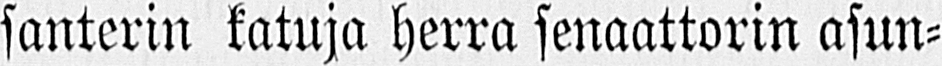santerin katuja herra senaattorin asun-
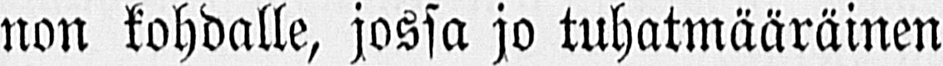non kohdalle, jossa jo tuhatmääräinen
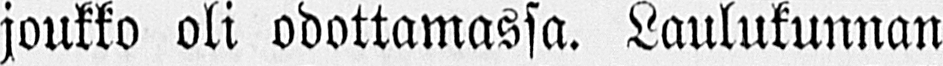joukko oli odottamassa. Laulukunnan
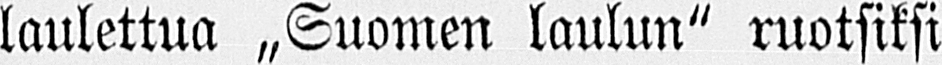laulettua „Suomen laulun" ruotsiksi
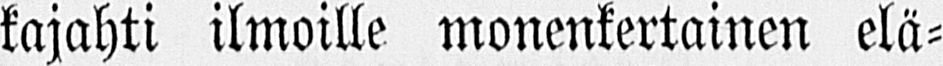kajahti ilmoille monenkertainen elä-
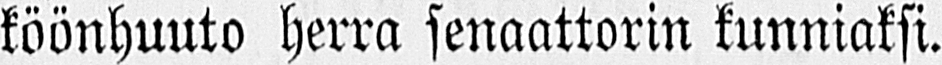köönhuuto herra senaattorin kunniaksi.
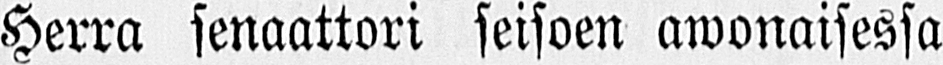Herra senaattori seisoen awonaisessa
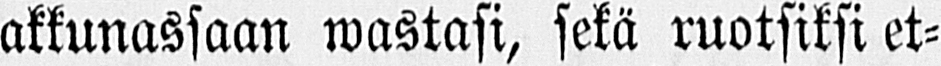akkunassaan wastasi, sekä ruotsiksi et-
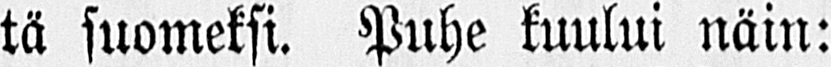tä suomeksi. Puhe kuului näin:
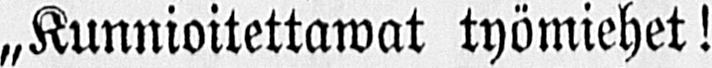„Kunnioitettawat työmiehet!
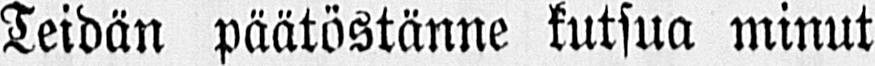Teidän päätöstänne kutsua minut
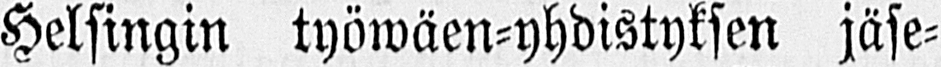Helsingin työwäen-yhdistyksen jäse-
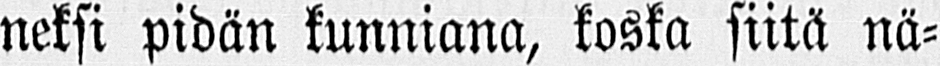neksi pidän kunniana, koska siitä nä-
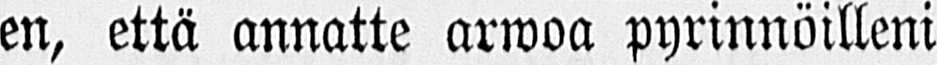en, että annatte arwoa pyrinnöilleni
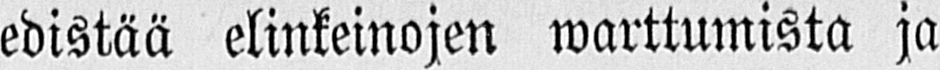edistää elinkeinojen warttumista ja
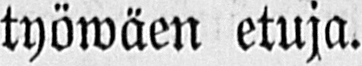työwäen etuja.
